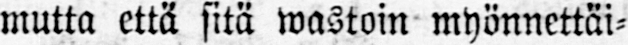mutta että sitä wastoin myönnettäi-
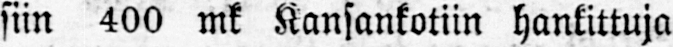siin 400 mk Kansankotiin hankittuja
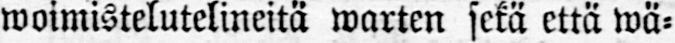woimistelutelineitä warten sekä että wä-
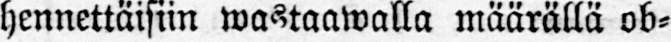hennettäisiin wastaawalla määrällä ob-
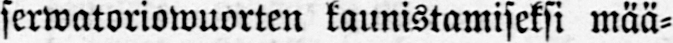serwatoriowuorten kaunistamiseksi mää-
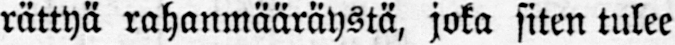rättyä rahanmääräystä, joka siten tulee
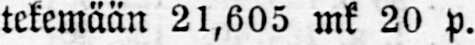tekemään 21,605 mk 20 p.
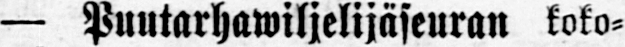— Puutarhawiljelijäseuran koko-
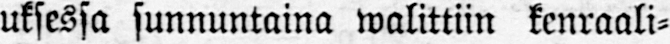uksessa sunnuntaina walittiin kenraali-
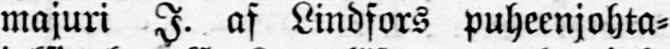majuri H. af Lindfors puheenjohta-
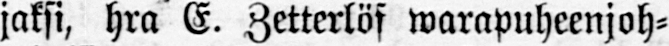jaksi, hra E. Zetterlöf warapuheenjoh-
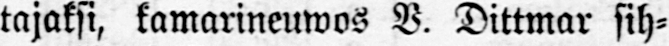tajaksi, kamarineuwos B. Dittmar sih-
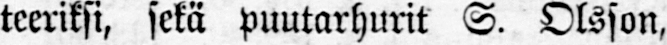teeriksi, sekä puutarhurit S. Olsson,
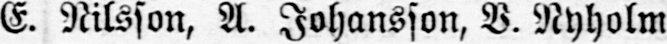E. Nilsson, A. Johansson, V. Nyholm
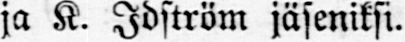ja K. Idström jäseniksi.
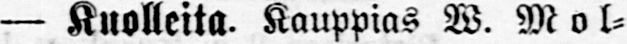— Kuolleita. Kauppias W. Mol-
